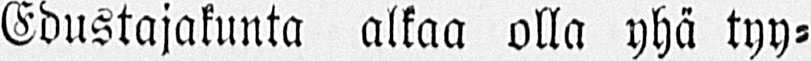Edustajakunta alkaa olla yhä tyy-
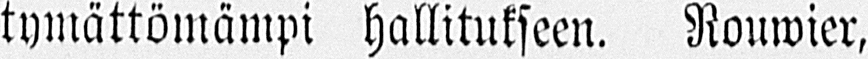tymättömämpi hallitukseen. Rouwier,
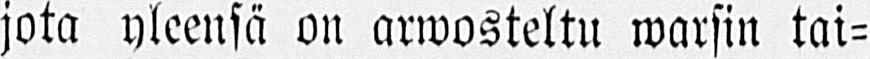jota yleensä on arwosteltu warsin tai-
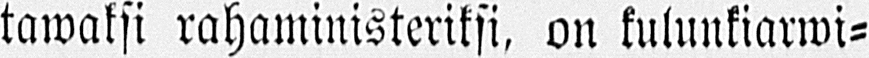tawaksi rahaministeriksi, on kulunkiarwi-
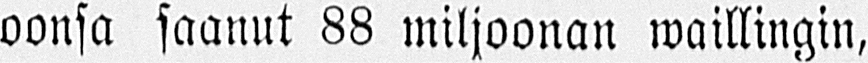oonsa saanut 88 miljoonan waillingin,
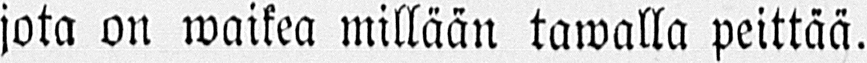jota on waikea millään tawalla peittää.
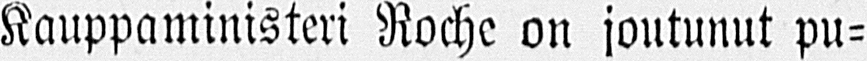Kauppaministeri Roche on joutunut pu-
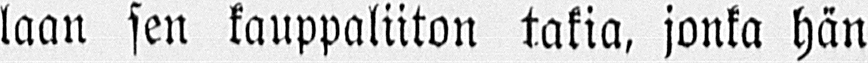laan sen kauppaliiton takia, jonka hän
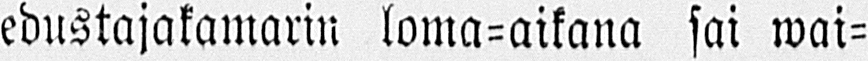edustajakamarin loma-aikana sai wai-
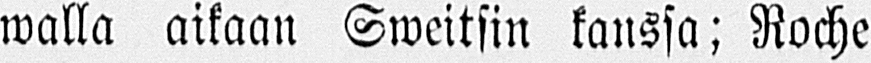walla aikaan Sweitsin kanssa; Roche
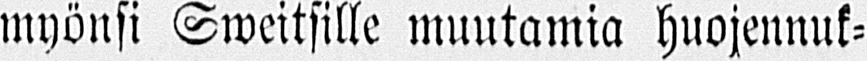myönsi Sweitsille muutamia huojennuk-
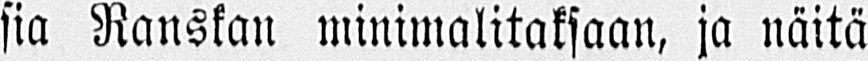sia Ranskan minimalitaksaan, ja näitä
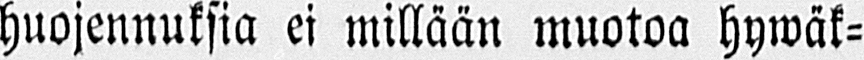huojennuksia ei millään muotoa hywäk-
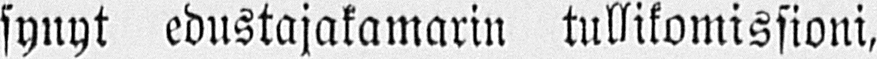synyt edustajakamarin tullikomissioni,
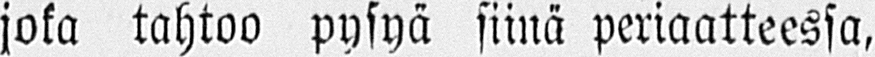joka tahtoo pysyä siinä periaatteessa,
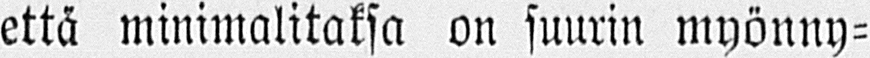että minimalitaksa on suurin myönny-
